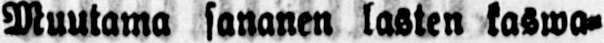Muutama sananen lasten kaswa-
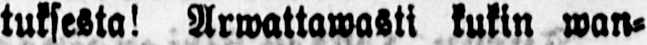tuksesta! Arwattawasti kukin wan-
